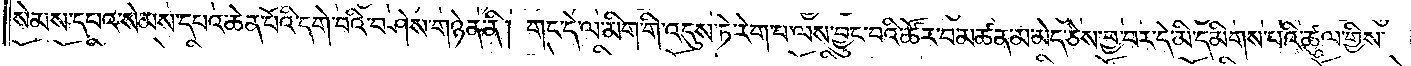སེམས་དཔའ་སེམས་དཔའ་ཆེན་པོའི་དགེ་བའི་བཤེས་གཉེན་ནི། གང་དེ་ལ་མིག་གི་འདུས་ཏེ་རེག་པ་ལས་བྱུང་བའི་ཚོར་བ་མཚན་མ་མེད་ཅེས་བྱ་བར་དེ་མི་དམིགས་པའི་ཚུལ་གྱིས་
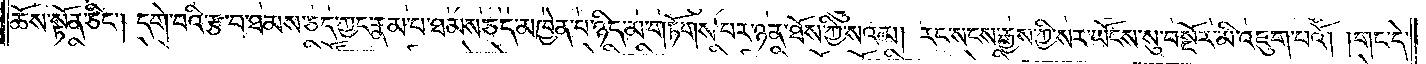ཆོས་སྟོན་ཅིང༌། དགེ་བའི་རྩ་བ་ཐམས་ཅད་ཀྱང་རྣམ་པ་ཐམས་ཅད་མཁྱེན་པ་ཉིད་མ་གཏོགས་པར་ཉན་ཐོས་ཀྱི་སའམ། རང་སངས་རྒྱས་ཀྱི་སར་ཡོངས་སུ་བསྔོར་མི་འཇུག་པའོ། །གང་དེ་
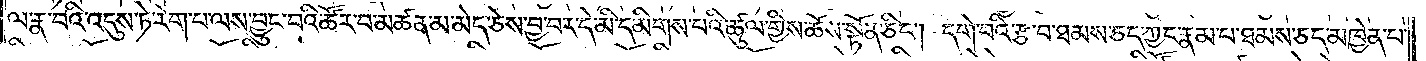ལ་རྣ་བའི་འདུས་ཏེ་རེག་པ་ལས་བྱུང་བའི་ཚོར་བ་མཚན་མ་མེད་ཅེས་བྱ་བར་དེ་མི་དམིགས་པའི་ཚུལ་གྱིས་ཆོས་སྟོན་ཅིང༌། དགེ་བའི་རྩ་བ་ཐམས་ཅད་ཀྱང་རྣམ་པ་ཐམས་ཅད་མཁྱེན་པ་
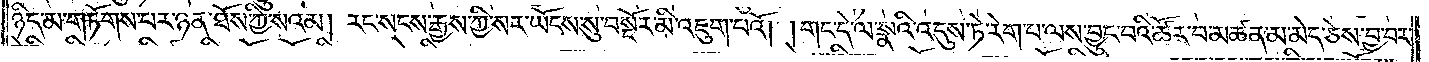ཉིད་མ་གཏོགས་པར་ཉན་ཐོས་ཀྱི་སའམ། རང་སངས་རྒྱས་ཀྱི་སར་ཡོངས་སུ་བསྔོར་མི་འཇུག་པའོ། །གང་དེ་ལ་སྣའི་འདུས་ཏེ་རེག་པ་ལས་བྱུང་བའི་ཚོར་བ་མཚན་མ་མེད་ཅེས་བྱ་བར་
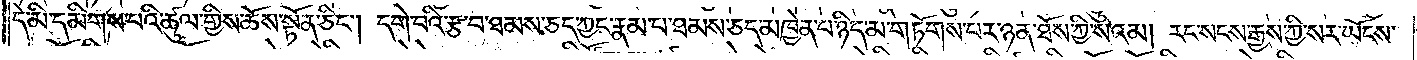དེ་མི་དམིགས་པའི་ཚུལ་གྱིས་ཆོས་སྟོན་ཅིང༌།དགེ་བའི་རྩ་བ་ཐམས་ཅད་ཀྱང་རྣམ་པ་ཐམས་ཅད་མཁྱེན་པ་ཉིད་མ་གཏོགས་པར་ཉན་ཐོས་ཀྱི་སའམ། རང་སངས་རྒྱས་ཀྱི་སར་ཡོངས་
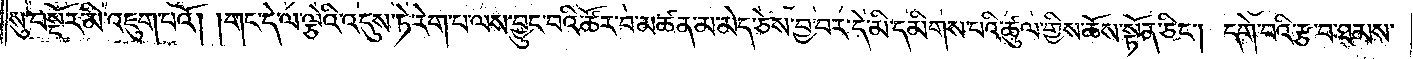སུ་བསྔོར་མི་འཇུག་པའོ། །གང་དེ་ལ་ལྕེའི་འདུས་ཏེ་རེག་པ་ལས་བྱུང་བའི་ཚོར་བ་མཚན་མ་མེད་ཅེས་བྱ་བར་དེ་མི་དམིགས་པའི་ཚུལ་གྱིས་ཆོས་སྟོན་ཅིང༌། དགེ་བའི་རྩ་བ་ཐམས་
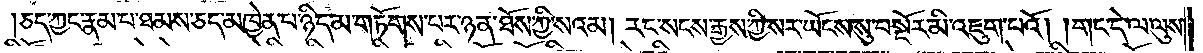ཅད་ཀྱང་རྣམ་པ་ཐམས་ཅད་མཁྱེན་པ་ཉིད་མ་གཏོགས་པར་ཉན་ཐོས་ཀྱི་སའམ། རང་སངས་རྒྱས་ཀྱི་སར་ཡོངས་སུ་བསྔོར་མི་འཇུག་པའོ། །གང་དེ་ལ་ལུས་
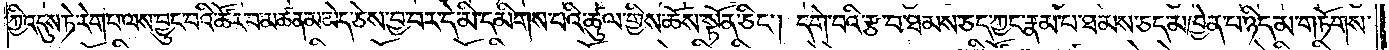ཀྱི་འདུས་ཏེ་རེག་པ་ལས་བྱུང་བའི་ཚོར་བ་མཚན་མ་མེད་ཅེས་བྱ་བར་དེ་མི་དམིགས་པའི་ཚུལ་གྱིས་ཆོས་སྟོན་ཅིང༌། དགེ་བའི་རྩ་བ་ཐམས་ཅད་ཀྱང་རྣམ་པ་ཐམས་ཅད་མཁྱེན་པ་ཉིད་མ་གཏོགས་
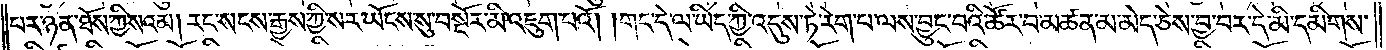པར་ཉན་ཐོས་ཀྱི་སའམ། རང་སངས་རྒྱས་ཀྱི་སར་ཡོངས་སུ་བསྔོར་མི་འཇུག་པའོ། །གང་དེ་ལ་ཡིད་ཀྱི་འདུས་ཏེ་རེག་པ་ལས་བྱུང་བའི་ཚོར་བ་མཚན་མ་མེད་ཅེས་བྱ་བར་དེ་མི་དམིགས་
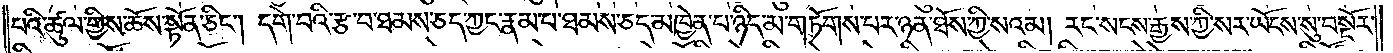པའི་ཚུལ་གྱིས་ཆོས་སྟོན་ཅིང༌། དགེ་བའི་རྩ་བ་ཐམས་ཅད་ཀྱང་རྣམ་པ་ཐམས་ཅད་མཁྱེན་པ་ཉིད་མ་གཏོགས་པར་ཉན་ཐོས་ཀྱི་སའམ། རང་སངས་རྒྱས་ཀྱི་སར་ཡོངས་སུ་བསྔོར་
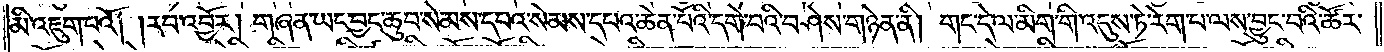མི་འཇུག་པའོ། །རབ་འབྱོར། གཞན་ཡང་བྱང་ཆུབ་སེམས་དཔའ་སེམས་དཔའ་ཆེན་པོའི་དགེ་བའི་བཤེས་གཉེན་ནི། གང་དེ་ལ་མིག་གི་འདུས་ཏེ་རེག་པ་ལས་བྱུང་བའི་ཚོར་
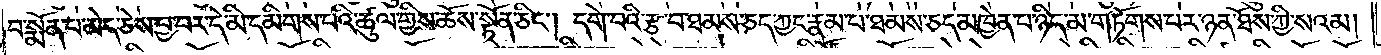བ་སྨོན་པ་མེད་ཅེས་བྱ་བར་དེ་མི་དམིགས་པའི་ཚུལ་གྱིས་ཆོས་སྟོན་ཅིང༌།དགེ་བའི་རྩ་བ་ཐམས་ཅད་ཀྱང་རྣམ་པ་ཐམས་ཅད་མཁྱེན་པ་ཉིད་མ་གཏོགས་པར་ཉན་ཐོས་ཀྱི་སའམ།
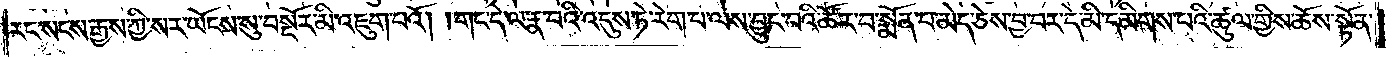རང་སངས་རྒྱས་ཀྱི་སར་ཡོངས་སུ་བསྔོར་མི་འཇུག་པའོ། །གང་དེ་ལ་རྣ་བའི་འདུས་ཏེ་རེག་པ་ལས་བྱུང་བའི་ཚོར་བ་སྨོན་པ་མེད་ཅེས་བྱ་བར་དེ་མི་དམིགས་པའི་ཚུལ་གྱིས་ཆོས་སྟོན་
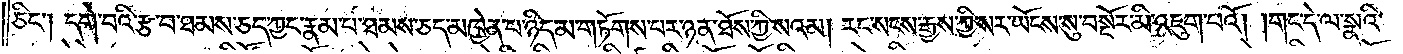ཅིང༌། དགེ་བའི་རྩ་བ་ཐམས་ཅད་ཀྱང་རྣམ་པ་ཐམས་ཅད་མཁྱེན་པ་ཉིད་མ་གཏོགས་པར་ཉན་ཐོས་ཀྱི་སའམ། རང་སངས་རྒྱས་ཀྱི་སར་ཡོངས་སུ་བསྔོར་མི་འཇུག་པའོ། །གང་དེ་ལ་སྣའི་
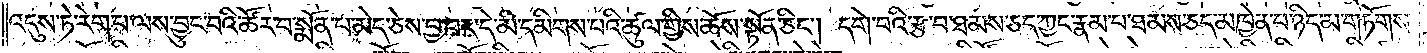འདུས་ཏེ་རེག་པ་ལས་བྱུང་བའི་ཚོར་བ་སྨོན་པ་མེད་ཅེས་བྱ་བར་དེ་མི་དམིགས་པའི་ཚུལ་གྱིས་ཆོས་སྟོན་ཅིང༌། དགེ་བའི་རྩ་བ་ཐམས་ཅད་ཀྱང་རྣམ་པ་ཐམས་ཅད་མཁྱེན་པ་ཉིད་མ་གཏོགས་
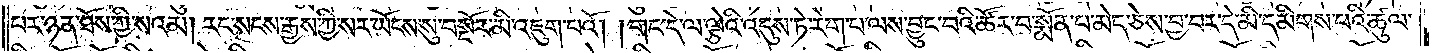པར་ཉན་ཐོས་ཀྱི་སའམ། རང་སངས་རྒྱས་ཀྱི་སར་ཡོངས་སུ་བསྔོར་མི་འཇུག་པའོ། །གང་དེ་ལ་ལྕེའི་འདུས་ཏེ་རེག་པ་ལས་བྱུང་བའི་ཚོར་བ་སྨོན་པ་མེད་ཅེས་བྱ་བར་དེ་མི་དམིགས་པའི་ཚུལ་
